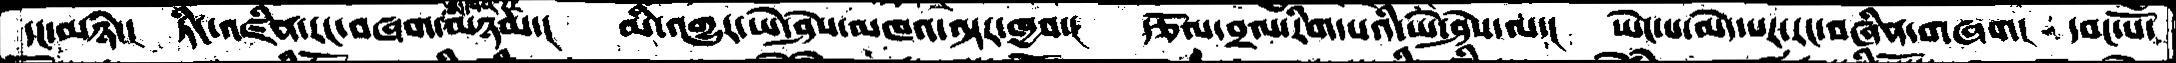དང་མཉཾ་། ཏིང་འཛིན་རང་བཞག་མཁའ་དང་མཉམ་། མི་འགྱུར་ཡེ་ཤེས་མཁའ་ལྟར་ཁྱབ་། རྩོལ་བྲལ་རིག་པའི་ཡེ་ཤེས་ལ་། ཡེང་པ་མེད་པར་རང་བཞིན་གཞག། དབང་པོ་
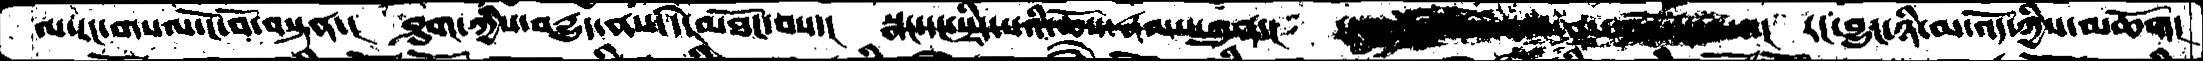ལ་རང་གསལ་ངོ་བོ་བསྟན་། ཤུག་ཀྱིས་བདྱུད་ནས་དེ་མཐོང་བས་། སྣང་དང་སྲིད་པའི་ཆོས་རྣམས་ཀུན་། རང་བྱུང་ཉི་མ་འོད་ཀྱིས་མཆོག།
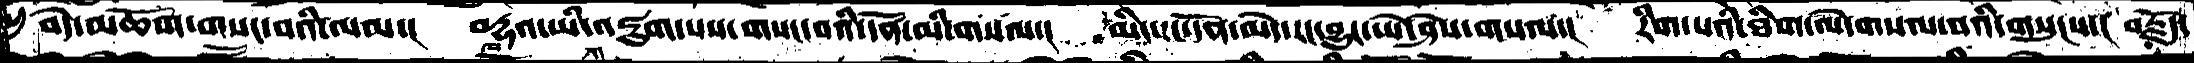བདེ་མཆོག་གསང་བའི་ལམ་། བརྡའ་ཡི་འཇུག་པས་གསང་བའི་དོན་མི་གསལ་། མིང་དང་དོན་མེད་རང་བྱུང་ཡེ་ཤེས་གསལ་། རིག་པའི་ཐིག་ལེ་གསལ་བའི་གསུངས་། བརྗོད་
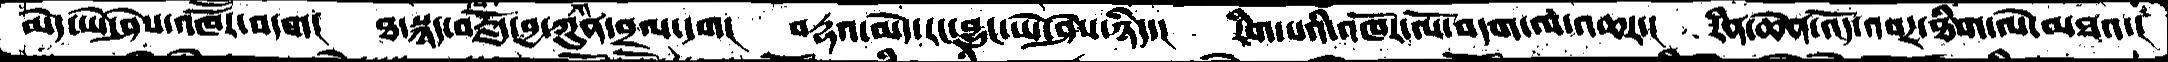མེད་ཡེ་ཤེས་འཁཽར་བདག། ཐ་སྙད་བརྗོད་བྱ་ཀུན་བྲལ་དག། བརྡའ་མེད་རང་བྱུང་ཡེ་ཤེས་ཉིད་། རིག་པའི་འཁོར་ལོ་བདག་ལ་འཆར་། རིན་ཆེན་འོད་འབར་ཐིག་ལེ་མཐའ་།
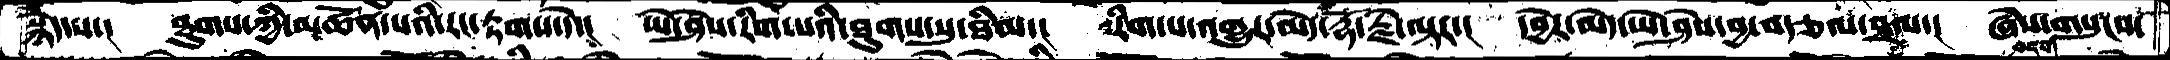སྙེད་པ་། ཐུགས་ཀྱི་མཚོན་པའི་རང་རྟགས་དེ་། ཡེ་ཤེས་རིག་པའི་ཐུགས་སུ་ཐིམ་། རིག་པ་འགྱུར་མེད་རྡོ་རྗེ་ལྟར་། དབྱེར་མེད་ཡེ་ཤེས་བྱ་བརྩལ་བྲལ་། ཞེས་གསུངས་
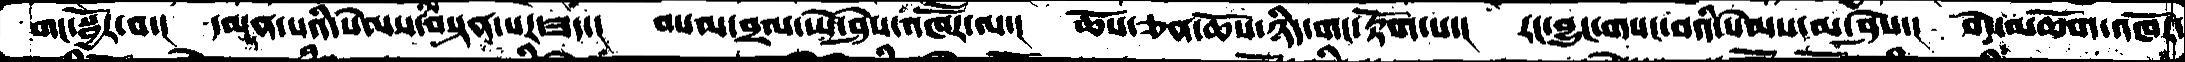གང་སྦྱོར་བ་། དམན་པའི་སེམས་ལ་བསྟན་པར་ཟད་། བསམ་བྲལ་ཡེ་ཤེས་འཁཽར་ལ་། ཆོས་ཅན་ཆོས་ཉིད་གང་རྟོག་པ་། རང་བྱུང་གསང་བའི་སེམས་མ་ཤེས་། བདེ་མཆོག་འཁོར་
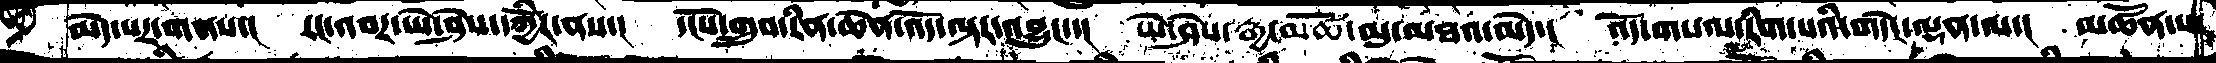མེད་པར་གནས་། རང་འབར་ཡེ་ཤེས་དཀྱིོར་ནས་། དངོས་གྲུབ་རིན་ཆེན་འོད་ལྟར་འབྱུང་་། ཡེ་ཤེས་རྒྱ་མཚོ་མུ་མཐའ་མེད་། འོད་གསལ་རིག་པའི་གདེང་ལྡན་མ་། མཚོན་པ་
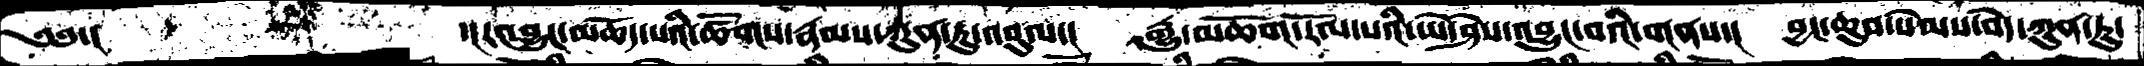༄༅་།        ་།རང་འབྱུང་མཆོད་པའི་ཚོགས་རྣམས་ཀུན་ཏུ་འབུལ་། རྒྱུ་མཆོག་རོལ་པའི་ཡེ་ཤེས་འབྱུང་བའི་གནས་། བྱང་ཆུབ་སེམས་བདེ་ཀུན་ཏུ་
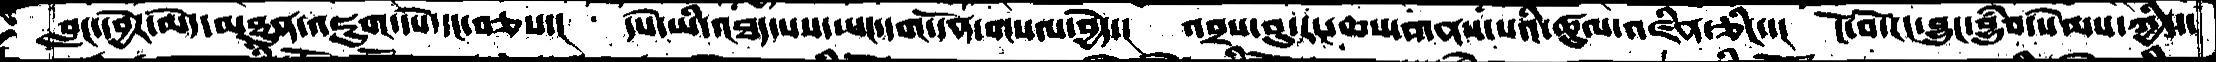བླང་དབྱེར་མེད་མཐུན་འཇུག་དཔེ་དང་བཅས་། དཔེ་ཡི་འཐད་པས་ཡང་དག་དོན་གསལ་བྱེད་། འབྲས་བུ་རང་ཆས་གནས་པའི་ཚུལ་འཛིན་ཅིང་་། ངོ་བོ་རང་བྱུང་བྱུཾབ་སེམས་ཀྱིས་
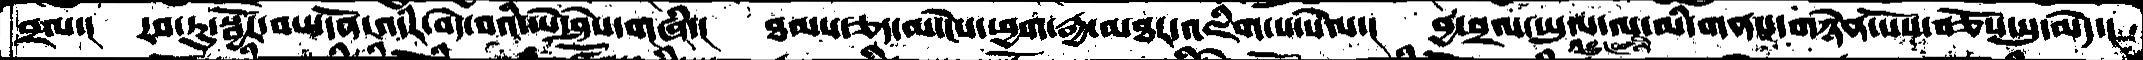བྲལ་། རབ་ཏུ་སྦྱོར་བས་དོན་འདིར་བདེ་བའི་ཡེ་ཤེས་གཞི་། ཐམས་ཅད་མ་ངེས་ཕྱག་རྒྱ་མཐར་འཇིག་པ་སེལ་། བྱ་བྲལ་ཡུལ་ལ་མི་གནས་གཉེན་པོས་བཅོས་སུ་མེད་།
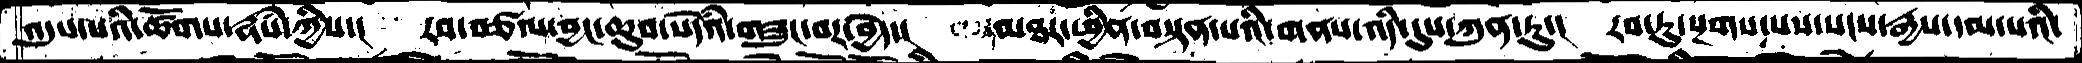འདུས་པའི་ཚོགས་རྣཾས་ཀྱིས་། རབ་བཙལ་བྱང་ཆུབ་སེདཾའ་གཟུང་བར་བྱེད་། མཐར་ཕྱིན་བསྟན་པའི་གནས་འདི་དུས་ཀུན་ཏུ་། རབ་ཏུ་སྔགས་པས་སངས་རྒྱས་དམ་པའི་
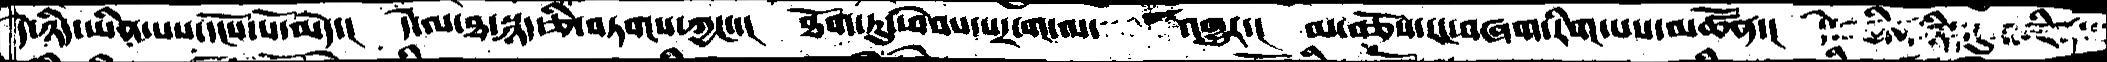དེ་ཉིད་ཡིན་པས་དངོས་པོ་མེད་། དེ་ལ་ཐ་སྙད་ཅི་བཏགས་ཀྱང་་། ཐོག་ཏུ་ཕེབས་པར་ག་ལ་་་འགྱུར་། མ་བཅོས་རང་བཞག་རིག་པས་མཚོན་། དེ་བཞིན་ཉིད་དུ་འཛིན་
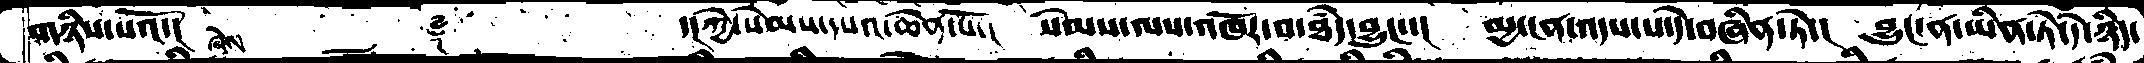གཉིས་པའོ་།      ༈     ་།ཀྱེ་སེམས་དཔའ་ཆེན་པོ་།  སེམས་ལས་འཁོར་བ་ཐཾད་བྱུང་་། མྱ་ངན་འདས་པ་དེ་བཞིན་ཏེ་། བྱུང་ན་ཡིན་ཏེ་དེ་ཉིད་
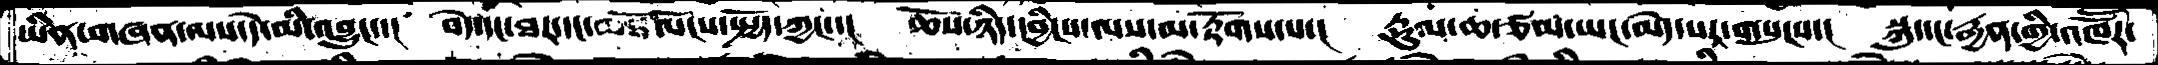ཡིན་གཞན་ལས་དེ་མི་འབྱུང་་། བདེ་དང་ཐར་དང་ལོངས་སྤྱོད་ཀྱང་་། ཆོས་ཉིད་དབྱིངས་ལས་མ་རྟོགས་པ་། རྡུལ་ཆ་ཙམ་ཡང་མེད་པར་གསུངས་། སྐུ་དང་རྒྱན་གྱི་འཁཽར་
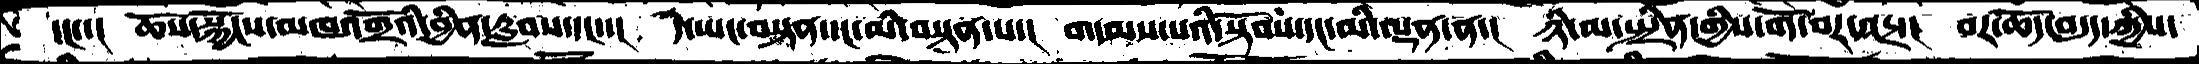དང་་། ཆོས་སྐྱོངས་མཁའགྲོའི་བྱིན་རླབས་དང་་། དེ་ཡང་བསྟན་དང་མི་བསྟན་པ་། གདམས་པའི་སྟོབས་དང་མི་ལྡན་ན་། ཉི་མ་སྤྲིན་གྱིས་གོ་བར་འདྲ་། བར་ཆོད་བདུད་ཀྱིས་
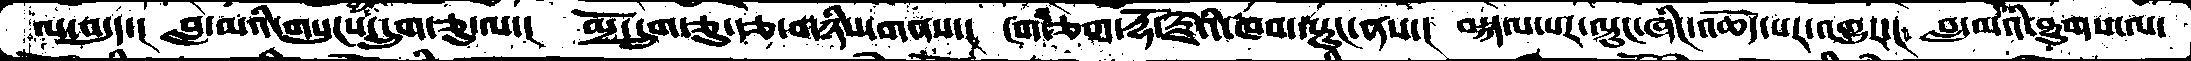ལ་བདུད་། བླ་མའི་གསུངས་དྲུག་ཅུ་ལ་། མྲོ་དྲུག་ཅུ་རྩ་གཉིས་གནས་། ངག་བཅག་རྡོ་རྗེའི་ཁབ་ལྟུང་ནས་། བསྐལ་པར་ལྟུང་ཞིང་འཆོད་པར་འགྱུར་། བླ་མའི་ཐུགས་ལ་
